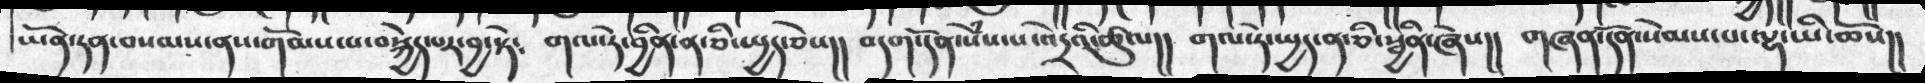ཡོན་ཏན་བསམས་ནས་གོམས་པ་བསྐྱེད་པར་བྱ་སྟེ༴ གལ་ཏེ་བྱིན་ན་ཅི་སྤྱད་ཅེས།། བདག་དོན་སེཾས་པ་འདྲེའི་ཚུལ།། གལ་ཏེ་སྤྱད་ན་ཅི་སྦྱིན་ཞེས།། གཞན་དོན་སེམས་པ་ལྷ་ཡི་ཆོས།།
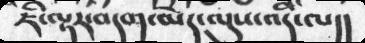ཇི་ལྟར་བདག་མེད་ལུས་འདི་ལ།།
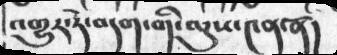འགྱུར་ཏེ་བདག་གི་ལུས་༤ན་ནོ།
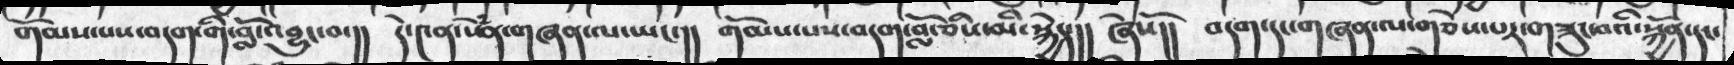གོམས་པས་བདག་གི་བློ་འབྱུང་བ་།། དེ་༤ན་སེཾན་གཞན་ལ་ཡང་།། གོམས་པས་བདག་བློ་ཅིས་མི་སྐྱེད་།། ཞེསོ།། བདག་དང་གཞན་ལ་གཅེས་པར་གཟུང་བའི་སྐྱོན་དང་
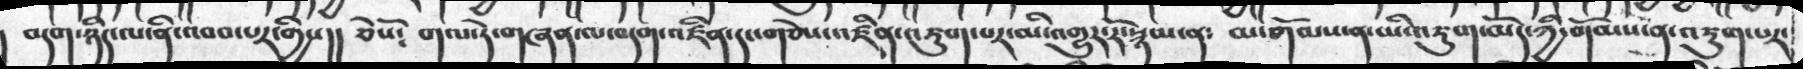བདག་ཉིད་ལ་ནི་འབབ་པར་གྱིས།། ཅེསོ༴ གལ་ཏེ་གཞན་ལ་བདག་འཛིན་དང་གཅེས་འཛིན་འཇུག་པར་མི་འགྱུར་རོ་སྙམ་ན༴ མ་གོམས་ན་མི་འཇུག་མོད་ཀྱི་གོམས་ན་འཇུག་པར་
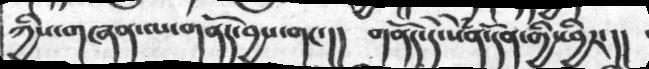ཀྱིས་གཞན་ལ་གནོད་བྱས་གང་།། གནོད་དེ་སེཾན་དོན་གྱི་ཕྱིར་།།
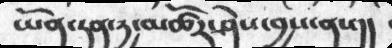ཡོན་ཏན་དྱ་མཚོར་ཤེས་བྱས་ནས།།
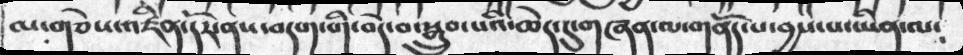ལ་གཅེས་འཛིན་དོར་ནས་བདག་གི་བདེ་བ་སྒྲུབ་པའི་ཆེད་དུ་གཞན་ལ་གནོད་པ་བྱས་པ་ཡིན་ལ༴
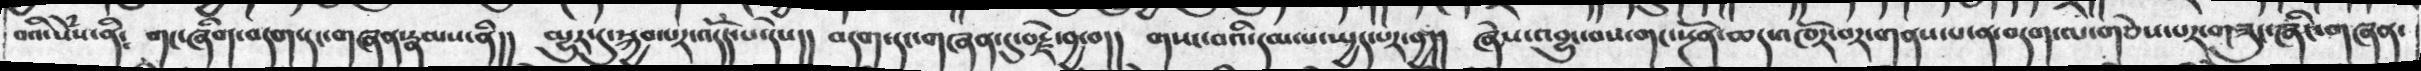བའི་སེཾས་ནི༴ གང་ཞིག་བདག་དང་གཞན་རྣམས་ནི།། མྱུར་དུ་སྐྱབ་པར་འདོད་པ་དེས།། བདག་དང་གཞན་དུ་བརྗེ་བྱ་བ།། གསང་བའི་དམ་པ་སྤྱད་པར་བྱ།། ཞེས་འབྱུང་བས་གང་སྔོན་ཆད་འཁོར་བར་གནས་པ་ན་བདག་ལ་གཅེས་པར་གཟུང་ཞིང་གཞན་
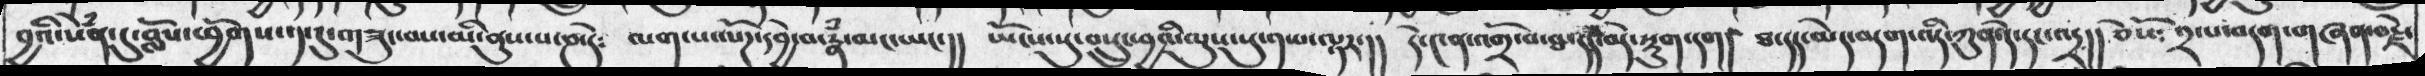བྱའི་སེཾན་དུ་བློས་ཕྱོགས་༡་དུ་གཟུང་བས་མི་ནུས་པ་ཎ་དེ༴ ལག་པ་ལོཌ་དབྱེ་བ་རྣཾ་མང་ཡང་།། ཡོངས་སུ་བསྲུང་བྱའི་ལུས་སུ་༡་པ་ལྟར་།། དེ་༤ན་འགྲོ་བ་ཐ་དད་བདེ་སྡུག་དག། ཐ་དད་མེད་བདག་འདི་ཀུན་དེ་དང་འདྲ།། ཅེསོ༴ ༢་པ་བདག་གཞན་བརྗེ་
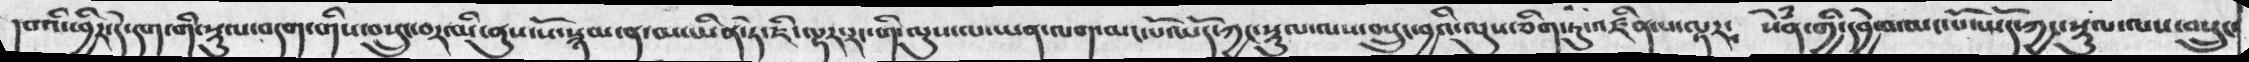།བའི་ཕྱིར་དེ་དག་གི་སྡུལ་བདག་གིས་བསྲུང་བར་མི་ནུས་སོ་སྙམ་ན་མ་ཡིན་ཏེ་ཇི་ལྟར་རང་གི་ལུས་ལ་ཡན་ལག་མང་པོ་ཡོད་ཀྱང་སྡུལ་ལས་བསྲུང་བྱའི་ལུས་ཅིག་ཏུ་འཛིན་པ་ལྟར༴ སེཾན་གྱི་དབྱེ་བ་མང་པོ་ཡོད་ཀྱང་སྡུལ་ལས་བསྲུང་
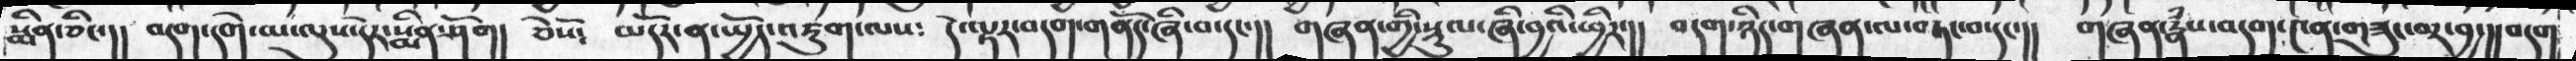སྨིན་ཅིང་།། བདག་དགེ་མ་ལུས་དེར་སྨིན་ཤོག། ཅེསོ༴ མདོར་ན་སྤྱོད་འཇུག་ལས༴ དེ་ལྟར་བདག་གནོད་ཞི་བ་དང་།། གཞན་གྱི་སྡུལ་ཞིང་བྱའི་ཕྱིར་།། བདག་ཉིད་གཞན་ལ་བཏང་བ་དང་།། གཞན་རྣཾས་བདག་༤ན་གཟུང་བར་བྱ་།།བདག
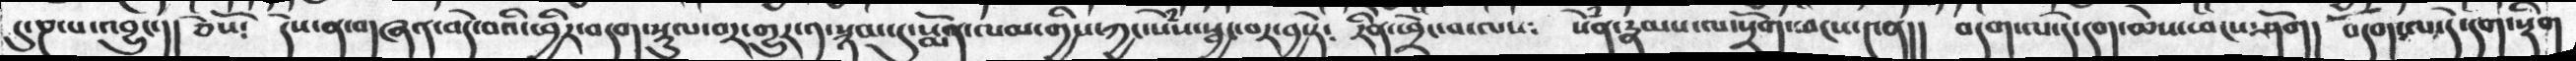དུ་ཎ་པ་འབྱུང་།། ཅེསོ༴  དེས་ན་གཞན་བདེ་བའི་ཕྱིར་བདག་སྡུལ་བར་གྱུར་༡་སྙམ་དུ་སྨོན་ལམ་གྱིས་ཀྱང་སེཾས་སྦྱང་བར་བྱ་ཏེ༴  རིནེ་ཕྲེང་བ་ལས༴  སེཾན་རྣམས་ལ་སྲོག་ཕངས་༤ན།།  བདག་ལ་དེ་དག་ཆེས་ཕངས་ཤོག།  བདག་ལ་དེ་དག་སྡིག
